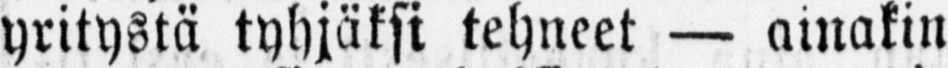yritystä tyhjäksi tehneet — ainakin
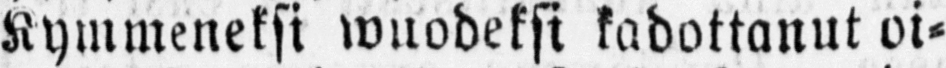Kymmeneksi wuodeksi kadottanut oi-
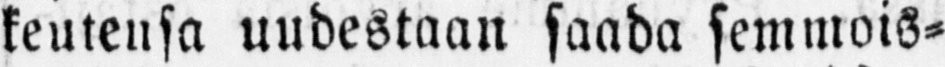keutensa uudestaan saada semmois-
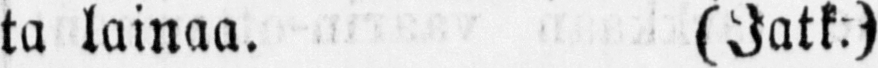ta lainaa. (Jatk.)
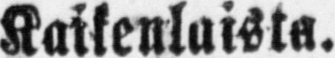Kaikenlaista.
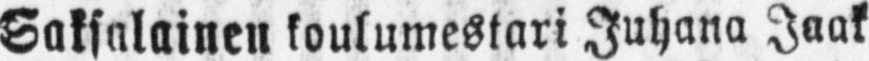Saksalainen koulumestari Juhana Jaak-
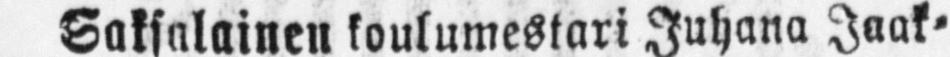ko Heberle joka oli wirkaansa 50 wuotta
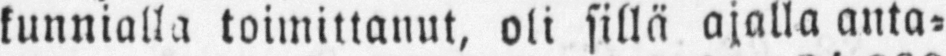kunnialla toimittanut, oli sillä ajalla anta-
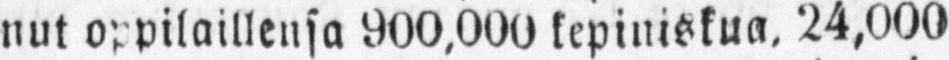nut oppilaillensa 900,000 kepiniskua. 24,000
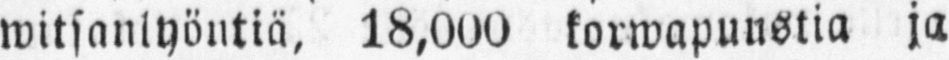witsanlyöntiä, 18,000 korwapunstia ja
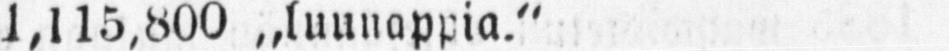1,115,800 „luunappia."
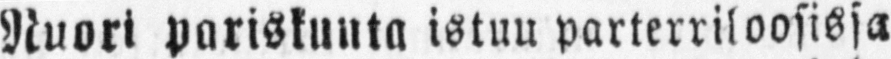Nuori pariskunta istuu parterriloosissa
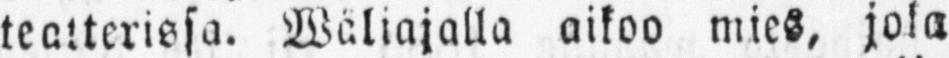teatterissa. Wäliajalla aikoo mies, joka
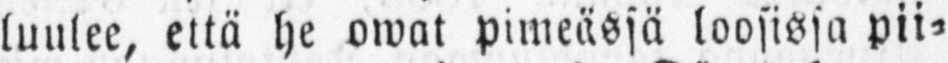luulee, että he owat pimeässä loosissa pii-
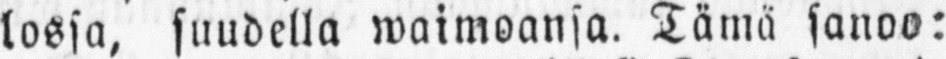lossa, suudella waimoansa. Tämä sanoo:
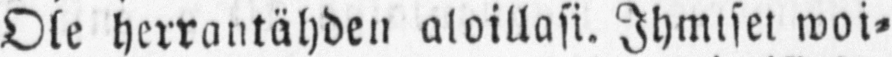Ole herrantähden aloillasi. Ihmiset woi-
